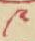༩
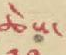ཚེས་
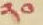༢༠
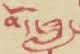བོད་ཟླ་
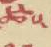ཚེས་
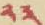༢༣
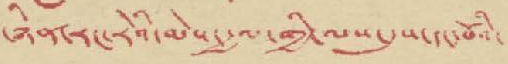ཉིན་རང་རེའི་མེས་རྒྱལ་གྱི་ལས་དུས་དང་པོའི་
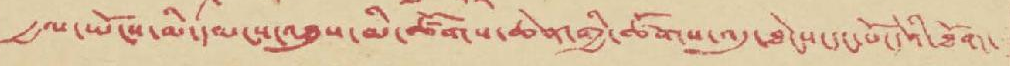རྒྱལ་ཡོངས་མི་དམངས་འཐུས་མི་ཚོགས་ཆེན་གྱི་ཚོགས་འདུ་ཐེངས་དང་པོ་དེའི་ཐོག་
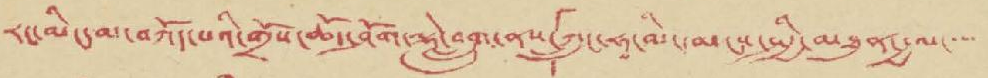རང་མིང་མ་བཀོད་པའི་གྲོས་ཆོད་ཤོག་ལྷེ་བླུག་ནས་「ཀྲུང་ཧྭ་མི་དམངས་སྤྱི་མཐུན་རྒྱལ་་་་
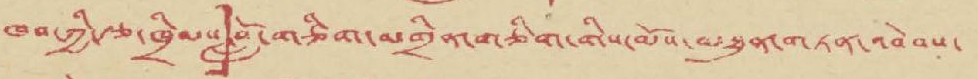ཁབ་ཀྱི་རྩ་ཁྲིམས་」བློ་གཅིག་མགྲིན་གཅིག་གིས་མོས་མཐུན་གཏན་འབེབས་
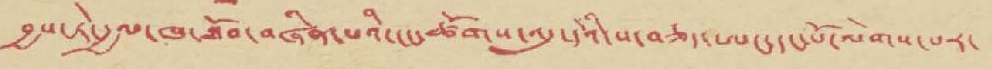བྱས་ཏེ་རྒྱལ་ཁ་ཐོབ་བཞིན་པའི་ངང་ཚོགས་འདུ་འདིའི་ད་བཅད་ཨང་དང་པོ་ལེགས་པར་
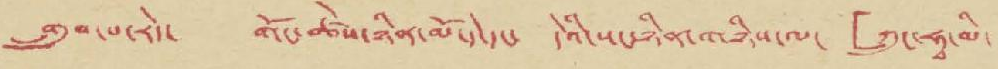གྲུབ་པ་རེད་ གོང་ཚེས་ཉིན་མོ་དེ་དང་ དེའི་སང་ཉིན་གཉིས་ལ་「ཀྲུང་ཧྭ་མི་
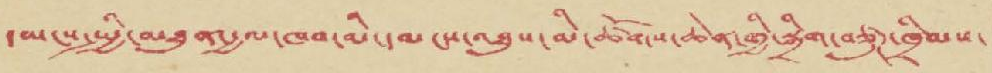དམངས་སྤྱི་མཐུན་རྒྱལ་ཁབ་མི་དམངས་འཐུས་མི་ཚོགས་ཆེན་གྱི་སྒྲིག་བཙུཊ་ཁྲིམས་
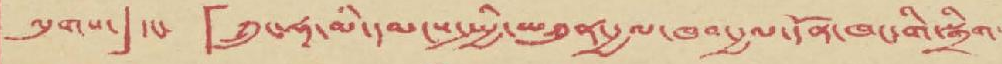ལུགས་」དང་ 「ཀྲུང་ཧྭ་མི་དམངས་སྤྱི་མཐུན་རྒྱལ་ཁབ་རྒྱལ་དོན་ཁང་གི་སྒྲིག་
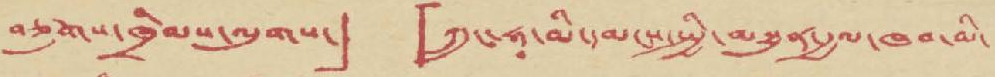བཙུགས་ཁྲིམས་ལུགས་」 「ཀྲུང་ཧྭ་མི་དམངས་སྤྱི་མཐུན་རྒྱལ་ཁབ་མི་
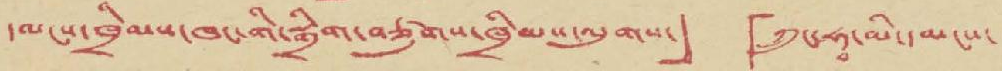དམངས་ཁྲིམས་ཁང་གི་སྒྲིག་བཙུགས་ཁྲིམས་ལུགས་」 「ཀྲུང་ཧྭ་མི་དམངས་
